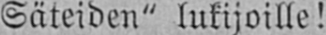Säteiden" lukijoille!
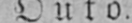Outo.
